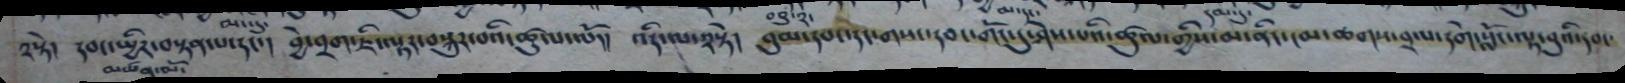༢སྟེ།  དབང་སྤྱིར་བསྟན་པ་དང་།  བྱེ་བྲག་ཇི་ལྟར་བསྐུར་བའི་ཚུལ་ལོ།།  འདི་ལ་༢སྟེ།  བུམ་དབང་དང་གསང་དབང་གོང་དུ་ཤེས་པའི་ཚུལ་གྱིས་མ་ནིང་ངམ་ཆགས་བྲལ་དགེ་སློང་ལྟ་བུའི་དབང་
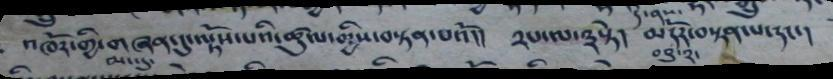འཁོར་གྱི་གཞན་དུ་ལྟོས་པའི་ཚུལ་གྱིས་བསྟན་པའོ།།  ༢པ་ལ་༣སྟེ།  མདོར་བསྟན་པ་དང་།
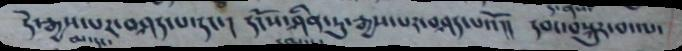དེ་རྒྱས་པར་བཤད་པ་དང་།   དངོས་ཤིན་ཏུ་རྒྱས་པར་བཤད་པའོ།།  དབང་བསྐུར་བ་ལ་
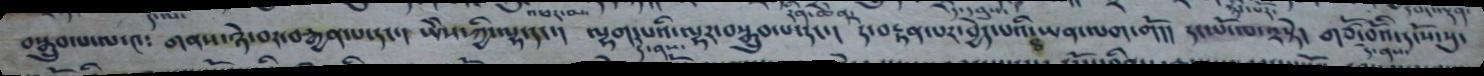བསྒྲུབ་པ་ལ་༤༴  གནས་ཉེ་བར་བརྒྱན་པ་དང་།  ཡེེས་ཀྱི་ལྷ་དང་།  ལྷག་པའི་ལྷར་བསྒྲུབ་པ་དང་།  དེ་བརྟན་པར་བྱེད་པའི་ཡན་ལག་གོ།།  དང་པོ་ལ་༢སྟེ།  གཙོ་བོའི་དངོས་སུ་
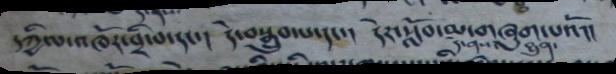དཀྱིལ་འཁོར་བྲི་བ་དང་།  དེ་བསྒྲུབ་པ་དང་།  དེར་སློབ་མ་གཞུག་པའོ།།
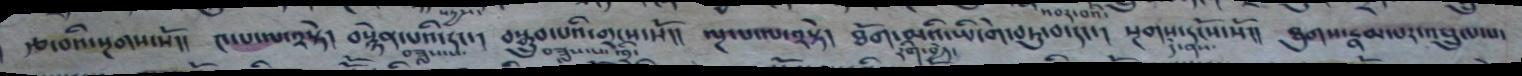རྩ་བའི་སྔགས་སོ།། ༤་པ་ལ་༢སྟེ།  བསྙེན་པའི་དང་།  བསྒྲུབ་པའི་གྲངས་སོ།།  ལྔ་པ་ལ་༢སྟེ།  ཐོག་མའི་ཡི་གེ་བཏུ་བ་དང་།  སྔགས་དངོས་སོ།།  ཐུགས་རྣམ་པར་འཕྲུལ་པ་
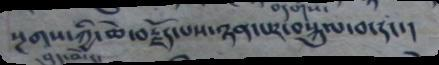སྔགས་ཀྱི་ཆེ་བརྗོད་པས་ཉན་པར་བསྐུལ་བ་དང་།
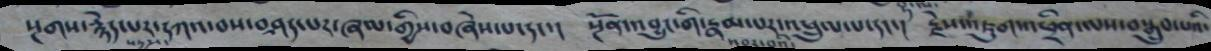སྔགས་རྙེད་པར་དཀའ་བས་བཤད་པར་ཞལ་གྱིས་བཞེས་པ་དང་།  སྔོན་འབྱུང་གི་རྣམ་པར་འཕྲུལ་པ་དང་།  རྗེས་འཇུག་འཕྲིན་ལས་བསྒྲུབ་པའི་
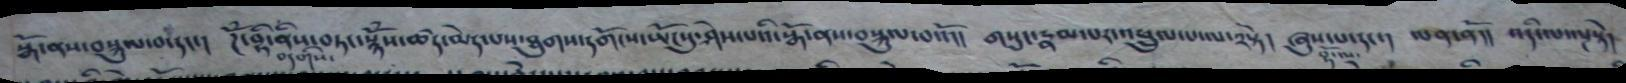སྒོ་ནས་བསྐུལ་བ་དང་།  ཌོཾ་བྷི་ནིས་བཏང་སྙོཾས་ཚད་མེད་པས་ཐུགས་དགོངས་ཡོངསུ་ཤེས་པའི་སྒོ་ནས་བསྐུལ་བའོ།།  གསུང་རྣམ་པར་འཕྲུལ་པ་ལ་༢སྟེ།  ཞུས་པ་དང་། ལན་ནོ།།  འདི་ལ་ལྔ་སྟེ།
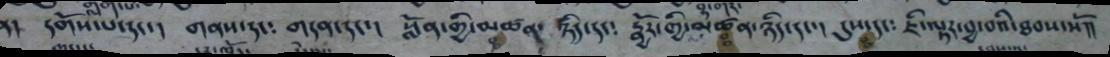ན།  དགོས་པ་དང་།  གནས་དང༴  གདན་དང་།   སློན་གྱི་མཚན་ཉིད་དང༴   རྣྱོར་གྱི་མཚན་ཉིད་དང་།  དུས་དང༴  ཇི་ལྟར་བྱ་བའི་ཐབས་སོ།།
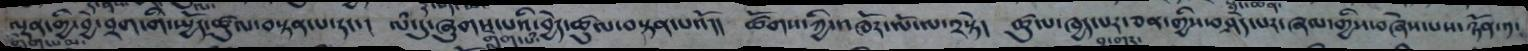ལྡན་གྱི་བྱེ་བྲག་གི་སྤྱོད་ཚུལ་བསྟན་པ་དང་།  ལཾ་དུ་ཞུགས་པའི་བྱེད་ཚུལ་བསྟན་པའོ།།  ཚོགས་ཀྱི་འཁོར་ལོ་ལ་༢སྟེ།  ཚུལ་ཁྱད་པར་ཅན་གྱིས་བཤད་པར་ཞལ་གྱིས་བཞེས་པས་ཉོན་༡་
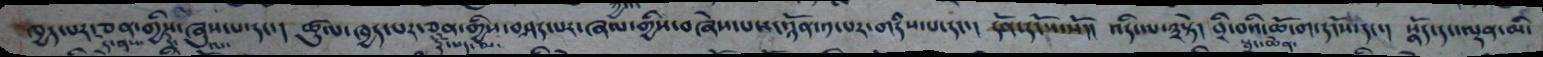ཁྱད་པར་ཅན་གྱིས་ཞུས་པ་དང་།  ཚུལ་ཁྱད་པར་ཅན་གྱིས་བཤད་པར་ཞལ་གྱིས་བཞེས་པས་ཉོན་༡་པར་གདཾས་པ་དང་།  དོན་དངོས་སོ།།  འདི་ལ་༣སྟེ།  བྲི་བའི་ཆོ་ག་དངོས་དང་།  སྣོད་དང་ལྡན་མི་
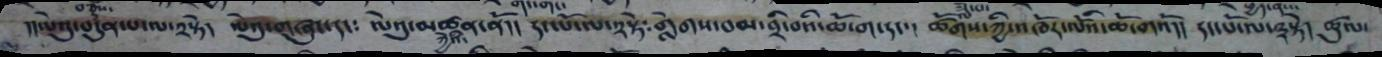།།ལེའུ་བདུན་པ་ལ་༢སྟེ།  ལེའུ་གཞུང་དང༴  ལེའུ་མཚན་ནོ།།  དང་པོ་ལ་༢སྟེ༴ གླེགས་བམ་བྲི་བའི་ཆོ་ག་དང་།  ཚོགས་ཀྱི་འཁོར་ལོའི་ཆོ་གའོ།།  དང་པོ་ལ་༣སྟེ།  ཚུལ་
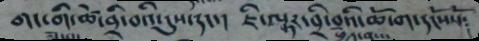གང་གི་ཚ་བྲི་བའི་དུས་དང་།  ཇི་ལྟར་བྲི་བའི་ཆོ་ག་དངོསསོ༴
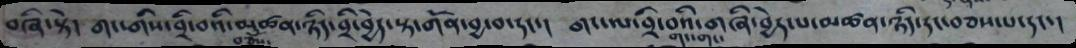བཞི་སྟེ།  གང་གིས་བྲི་བའི་མཚན་ཉིད་བྲི་བྱེད་སྟ་གོན་བྱ་བ་དང་།   གང་ལ་བྲི་བའི་གཞི་བྱེད་པ་མཚན་ཉིད་དང་བཅས་པ་དང་།
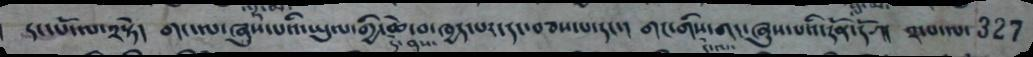དང་པོ་ལ་༢སྟེ།  གང་ལ་ཞུས་པའི་ཡུལ་གྱི་ཆེ་བ་ཁྱད་པར་དང་བཅས་པ་དང་།  གང་གིས་གང་ཞུས་པའི་དོན་དོ།།  ༢་པ་ལ་
